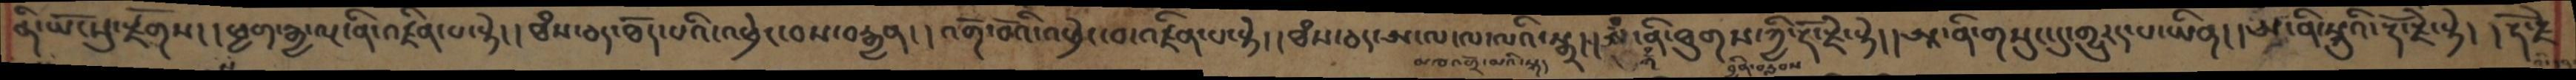ནི་ཡོངསུ་རྫོགས། །ཕྱག་རྒྱ་ལྔ་ནི་འཛིན་པ་སྟེ། །ཐཾས་ཅད་ཐོད་པའི་འཕྲེང་བས་བརྒྱན། །འགོ་བོའི་འཕྲེང་བ་འཛིན་པ་སྟེ། །ཐཾས་ཅད་ཨ་ལ་ལ་ལའི་སྒྲ། །ཨྃ་ནི་ཐུགས་ཀྱི་རྡོ་རྗེ་སྟེ།་།།ཨཱ་ནི་གསུང་དུ་གྱུརད་པ་ཡིན།།ཨཱ་ནི་སྐུའི་རྡོ་རྗེ་སྟེ། །རྡོ་རྗེ
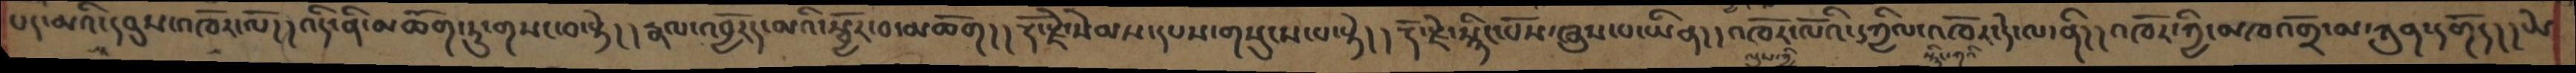པད་མའི་དབུས་འཁོར་ལོ། །འདི་ནི་མཆོག་ཏུ་གསང་བ་སྟེ། །རྣལ་འབྱོརད་མའི་སྦྱོར་བ་མཆོག། །རྡོ་རྗེ་སེམས་དཔས་གསུངས་པ་སྟེ། །རྡོ་རྗེ་སྙིང་པོས་ཞུས་པ་ཡིན། །འཁོར་ལོའི་དཀྱིལ་འཁོར་དེ་ལ་ནི། །འཁོར་གྱི་མཁའགྲོ་མ་ཀུན་དགོད། །ཡེ
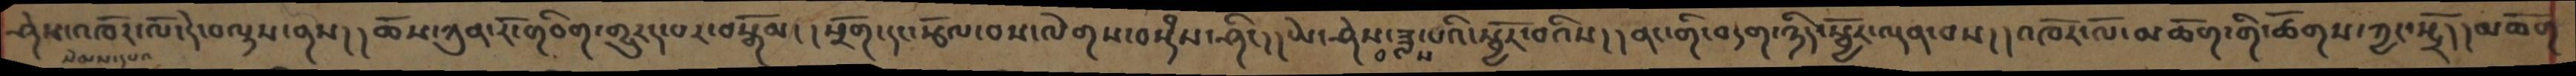ཤེས་འཁོར་ལོ་དེ་བལྟས་ནས།། ཆོས་ཀུན་རོ་གཅིག་གྱུརད་པར་བསྒོམ། །སྲོག་དང་རྩོལ་བས་ལེགས་བསྡཾས་ཤིང།། ཡེ་ཤེས་བཟླས་པའི་སྦྱོར་བའིས། །ནང་གི་བདག་ཉིད་སྦྱོར་ལྡན་བས། །འཁོར་ལོ་མཆོག་གི་ཚོགས་ཀྱང་སྤྲོ། །མཆོག
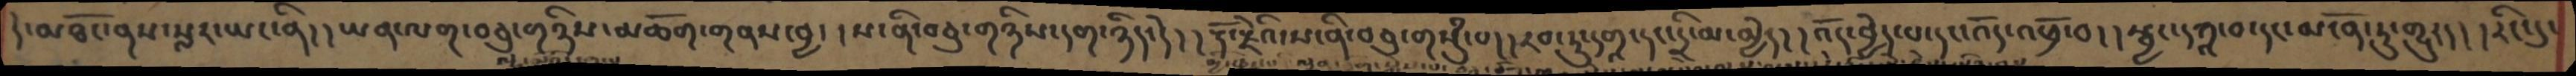དེ་མཐོང་ནས་སླར་ཡང་ནི།། ཡན་ལག་བཅུ་གཉིས་མཆོག་གནས་བྱ། །ས་ནི་བཅུ་གཉིས་དག་ཉིད་དེ། །རྡོ་རྗེའི་ས་ནི་བཅུ་གསུམ་པ། །རབ་ཏུ་དགའ་དང་དྲི་མ་མྱེད། །འོད་བྱེད་པ་དང་འོད་འཕྲོ་བ། །སྦྱང་དཀའ་བ་དང་མངོན་ཏུ་གྱུརད། །རིང་དུ་
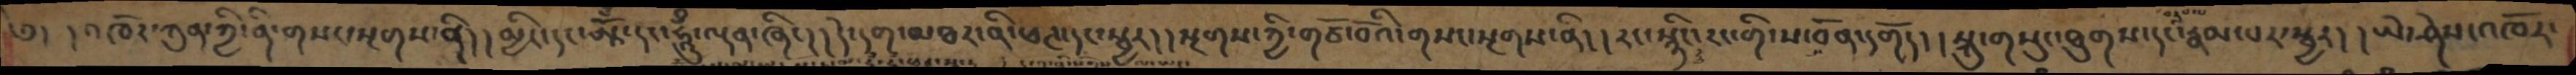༄།  །འཁོར་ཀུན་ཀྱི་ནི་གསང་སྔགས་ནི།། མྱིང་དངཨཱོཾ་དང་ཧཱུྃ་ལྡནཞིང།། དེ་དག་མཐར་ནི་ཕཊ་དང་སྦྱར།། སྔགས་ཀྱི་གཙོ་བོའི་གསང་སྔགས་ནི།། རང་སྙིང་རང་གི་ས་བོན་དགོད།། སྐུ་གསུང་ཐུགས་དང་རྣམ་པར་སྦྱར།། ཡེ་ཤེས་འཁོར་
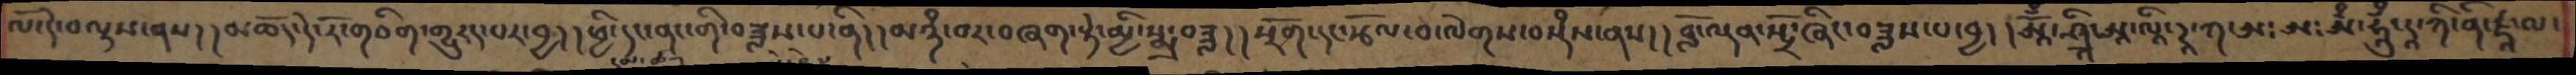ལ་དེ་བལྟས་ནས།། མཆོད་དེ་རོ་གཅིག་གྱུརད་པར་བྱ།། ཕྱི་དང་ནང་གི་བཟླས་པ་ནི།། མཉཾ་པར་བཞག་སྟེ་མྱིསྨྲ་བཟླ།། སྲོག་དང་རྩོལ་བ་ལེགས་བསྡཾས་ནས།། བློ་ལྡན་སྤྲོ་ཞིང་བཟླས་པ་བྱ།།་ཨཱོྃ་ཤྲཱི་ཨཱ་ལཱི་ཌཱ་ཀ་ཨ་ཨ་ཨཱྃ་ཧཱུྃ་ཌཱ་ཀི་ནི་ཛཱ་ལ་
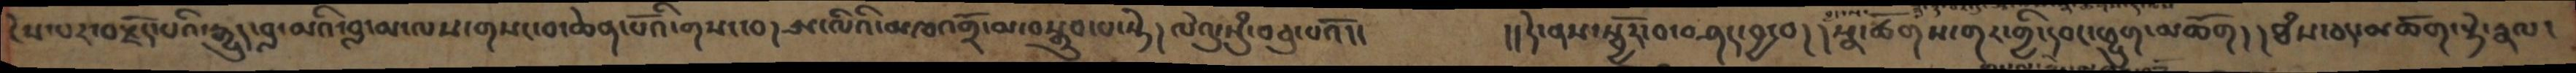ངེས་པར་བརྗོད་པའི་རྒྱུད་བླ་མའི་བླ་མ་ལས་གསང་བ་ཆེན་པོའི་གསང་བ། ཨ་ལིའི་མཁའགྲོ་མ་བསྒྲུབ་པ་སྟེ། ལེའུ་སུཾ་བཅུ་པའོ།།    །།དེ་ནསསྦྱོར་བ་བཤད་བྱ་བ། །སྣ་ཚོགས་གར་གྱི་དབང་ཕྱུག་མཆོག། །ཐཾས་ཅད་མཆོག་སྟེ་རྣལ་
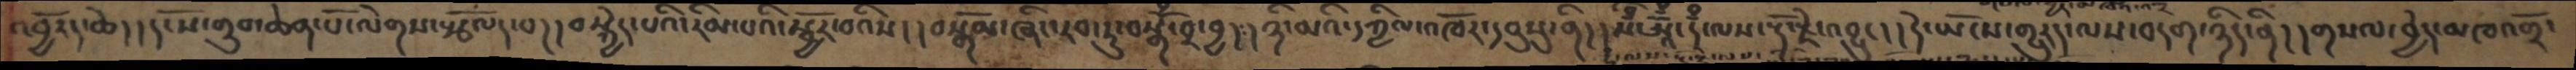འབྱོརད་ཆེ། །དངོས་གྲུབ་ཆེན་པོ་ལེགས་སྩོལད་བ། །བསྐྱེད་པའི་རིམ་པའི་སྦྱོར་བའིས། །བསྒོམ་ཞིང་རབ་ཏུ་བསྒོཾ་བར་བྱ། །ཉི་མའི་དཀྱིལ་འཁོར་དབུསུ་ནི། །སྃ་ཨཱོྃ་དྃ་ལས་རྡོ་རྗེ་འབྱུང། །དེ་ཡོངས་གྱུརད་ལས་བདག་ཉིད་ནི། །གསལ་བྱེད་མཁའགྲོ་
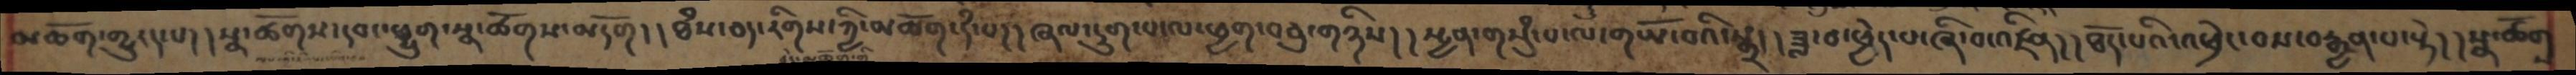མཆོག་གྱུརད་པ། །སྣ་ཚོགས་དབང་ཕྱུག་སྣ་ཚོགས་མདོག། །ཐཾས་ཅད་རིགས་ཀྱི་མཆོག་དཾ་པ། །ཞལ་དྲུག་པ་ལ་ཕྱག་བཅུ་གཉིས། །སྤྱན་གསུྃ་པ་ལ་གཡོ་བའི་སྒྲ། །ཟླ་བ་ཕྱེད་པ་ཞི་བ་འཛིན། །ཐོད་པའི་འཕྲེང་བས་བརྒྱན་པ་སྟེ། །སྣ་ཚོགས
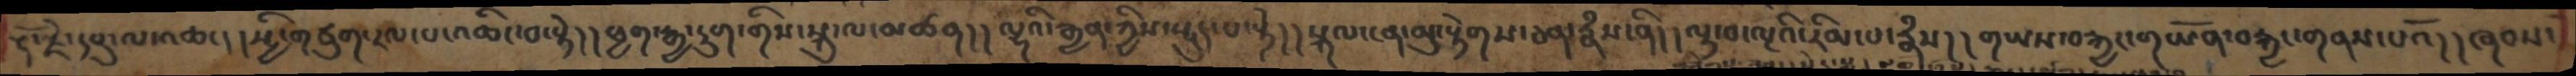རྡོ་རྗེ་དབུ་ལ་འཆང།།སྤྱི་གཙུག་རལ་པ་འཆིང་བ་སྟེ།། ཕྱག་རྒྱ་དྲུག་གིས་སྐུ་ལ་མཚན།། ལྷའི་རྒྱན་ཀྱིས་སྡུད་པ་སྟེ།། སྐལ་ངན་མུ་སྟེགས་ཅན་རྣཾསནི།། ལྟ་བ་ལྔའི་རིམ་པ་རྣཾས།། གཡས་བརྐྱང་གཡོན་བརྐྱང་གནས་པའོ།། ཞབས་
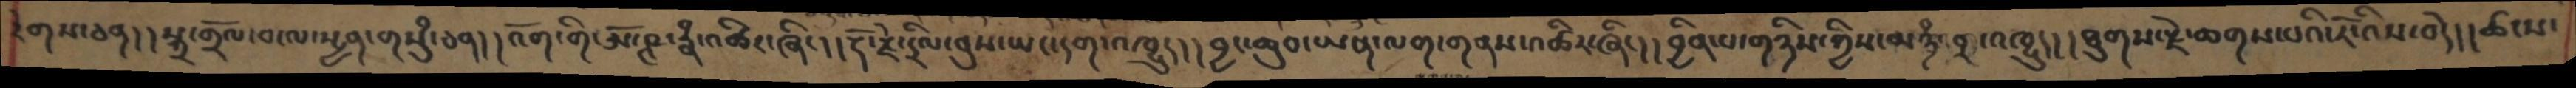རེགས་ཅན།།།སྐྲ་གྲོལ་བ་ལ་སྤྱན་གསུཾ་ཅན།།འོག་གི་ཨོ་ཥྚ་རྣཾ་འཚིར་ཞིང།།རྡོ་རྗེ་དྲིལ་བུས་ཡང་དག་འཁྱུད།།བྱང་ཆུབ་ཡན་ལག་གནས་འཚིར་ཞིང།།བྱིན་པ་གཉིས་ཀྱིས་མཉཾ་བར་འཁྱུད།།ཐུགས་རྗེ་ཆགས་པའི་རོ་འིས་བདེ།།ཚངས་
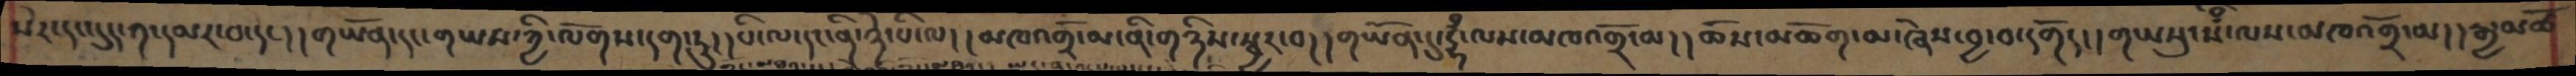སེར་དང་དུད་ཀ་དམར་བ་དང། །གཡོན་དང་གཡས་ཀྱི་ལོགས་དག་ཏུ། །པི་ལ་དང་ནི་ཉེ་པི་ལ། །མཁའགྲོ་མ་ནི་གཉིས་སྦྱར་བ། །གཡོན་དུ་དྷྃ་ལས་མཁའགྲོ་མ། །ཆོས་མཆོག་མ་ཞེས་བྱ་བ་དགོད། །གཡསུ་སྃ་ལས་མཁའགྲོ་མ།།རྒྱ་མཚོ
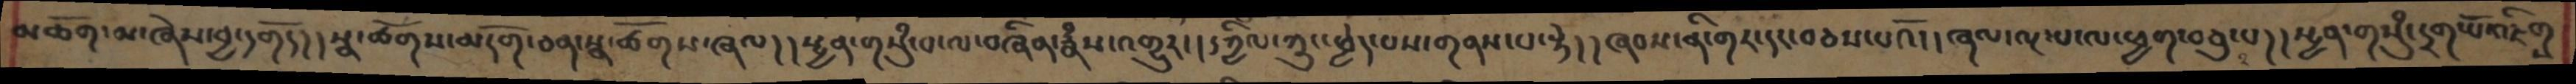མཆོག་མ་ཞེས་བྱ་དགོད། །སྣ་ཚོགས་མདོག་ཅན་སྣ་ཚོགས་ཞལ། །སྤྱན་གསུཾ་པ་ལ་བཞིན་རྣཾས་འགྱུར། །དཀྱིལ་ཀྲུང་ཕྱེད་པས་གནས་པ་སྟེ། །ཞབས་ནི་གར་དང་བཅས་པའོ། །ཞལ་ལྔ་པ་ལ་ཕྱག་བཅུ་པ། །སྤྱན་གསུཾ་དྲག་པོ་འཇིགས
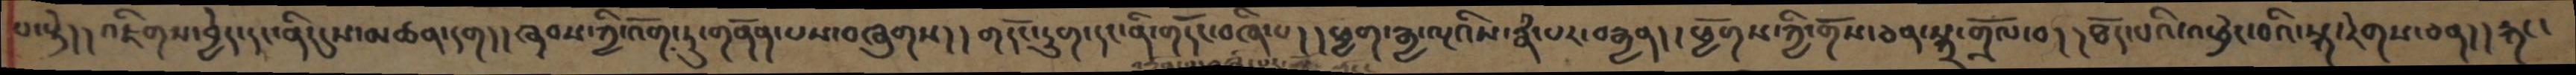པ་སྟེ།།འཇིགས་བྱེད་དང་ནི་དུས་མཚན་དག།།ཞབས་ཀྱི་འོག་ཏུ་གནོན་པས་བཞུགས།།གདོང་དྲུག་དང་ནི་གདོང་བཞི་པ།།ཕྱག་རྒྱ་ལྔའིས་རྣཾ་པར་བརྒྱན།།ཕྱོགས་ཀྱི་གོས་ཅན་སྐྲ་གྲོལ་བ།།ཐོད་པའི་འཕྲེང་བའི་སྐ་རེགས་ཅན།།རྐང་
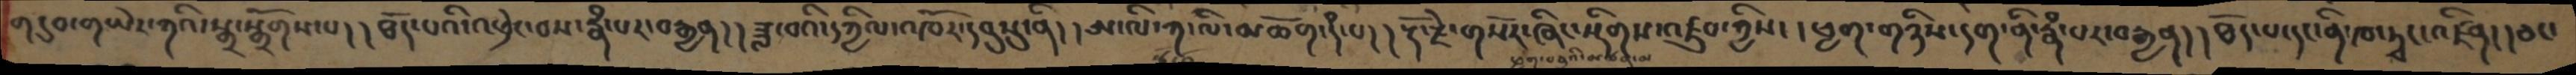གདུབ་གཡེར་ཀའི་སྒྲ་སྒྲོགས་པ།།ཐོད་པའི་འཕྲེང་བས་རྣཾ་པར་བརྒྱན།།ཟླ་བའི་དཀྱིལ་འཁོར་དབུསུ་ནི།།ཨ་ལི་ཀ་ལི་མཆོག་དཾ་པ།།རྡོ་རྗེ་གསོར་ཞིང་སྡིགས་འཛུབ་ཀྱིས།།ཕྱག་གཉིས་དག་ནི་རྣཾ་པར་བརྒྱན།།ཐོད་པ་དང་ནི་ཁ་ཏྭང་འཛིན།།ཅང་
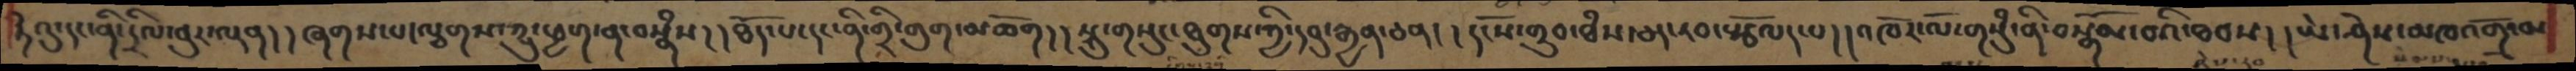ཏེའུ་དང་ནི་དྲིལ་བུར་ལྡན།།ཞགས་པ་ལྕགས་ཀྱུ་ཕྱག་ན་བསྣཾས།།ཐོད་པ་དང་ནི་གྲི་གུག་མཆོག།།སྐུ་གསུང་ཐུགས་ཀྱི་དབུ་རྒྱན་ཅན།།དངོས་གྲུབ་ཐཾས་ཅད་རབ་སྩོལད་པ།།འཁོར་ལོ་གསུཾ་ནི་བསྒོམ་བའི་ཐབས།།ཡེ་ཤེས་མཁའགྲོ་མ
